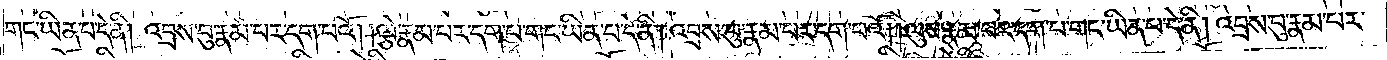གང་ཡིན་པ་དེ་ནི། འབྲས་བུ་རྣམ་པར་དག་པའོ། །ལྕེ་རྣམ་པར་དག་པ་གང་ཡིན་པ་དེ་ནི། འབྲས་བུ་རྣམ་པར་དག་པའོ། །ལུས་རྣམ་པར་དག་པ་གང་ཡིན་པ་དེ་ནི། འབྲས་བུ་རྣམ་པར་
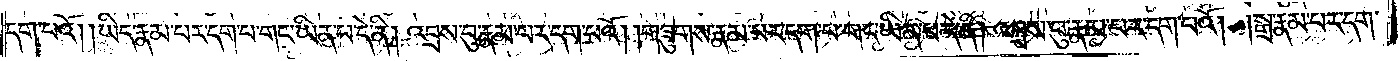དག་པའོ། །ཡིད་རྣམ་པར་དག་པ་གང་ཡིན་པ་དེ་ནི། འབྲས་བུ་རྣམ་པར་དག་པའོ། །གཟུགས་རྣམ་པར་དག་པ་གང་ཡིན་པ་དེ་ནི། འབྲས་བུ་རྣམ་པར་དག་པའོ། །སྒྲ་རྣམ་པར་དག་
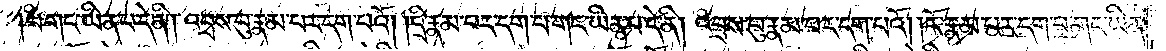པ་གང་ཡིན་པ་དེ་ནི། འབྲས་བུ་རྣམ་པར་དག་པའོ། །དྲི་རྣམ་པར་དག་པ་གང་ཡིན་པ་དེ་ནི། འབྲས་བུ་རྣམ་པར་དག་པའོ། །རོ་རྣམ་པར་དག་པ་གང་ཡིན་
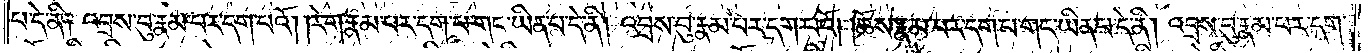པ་དེ་ནི༑ འབྲས་བུ་རྣམ་པར་དག་པའོ། །རེག་རྣམ་པར་དག་པ་གང་ཡིན་པ་དེ་ནི། འབྲས་བུ་རྣམ་པར་དག་པའོ། །ཆོས་རྣམ་པར་དག་པ་གང་ཡིན་པ་དེ་ནི། འབྲས་བུ་རྣམ་པར་དག་
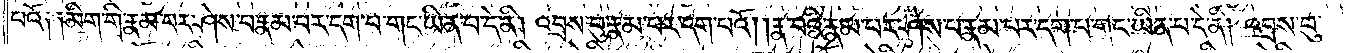པའོ༑ ༑མིག་གི་རྣམ་པར་ཤེས་པ་རྣམ་པར་དག་པ་གང་ཡིན་པ་དེ་ནི། འབྲས་བུ་རྣམ་པར་དག་པའོ། །རྣ་བའི་རྣམ་པར་ཤེས་པ་རྣམ་པར་དག་པ་གང་ཡིན་པ་དེ་ནི། འབྲས་བུ་
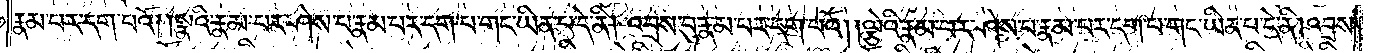རྣམ་པར་དག་པའོ། །སྣའི་རྣམ་པར་ཤེས་པ་རྣམ་པར་དག་པ་གང་ཡིན་པ་དེ་ནི། འབྲས་བུ་རྣམ་པར་དག་པའོ། །ལྕེའི་རྣམ་པར་ཤེས་པ་རྣམ་པར་དག་པ་གང་ཡིན་པ་དེ་ནི། འབྲས་
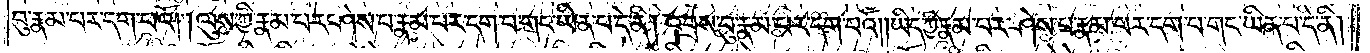བུ་རྣམ་པར་དག་པའོ། །ལུས་ཀྱི་རྣམ་པར་ཤེས་པ་རྣམ་པར་དག་པ་གང་ཡིན་པ་དེ་ནི། འབྲས་བུ་རྣམ་པར་དག་པའོ། །ཡིད་ཀྱི་རྣམ་པར་ཤེས་པ་རྣམ་པར་དག་པ་གང་ཡིན་པ་དེ་ནི།
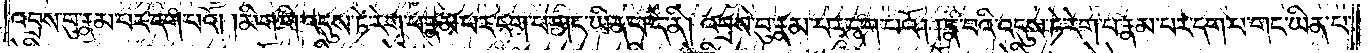འབྲས་བུ་རྣམ་པར་དག་པའོ། །མིག་གི་འདུས་ཏེ་རེག་པ་རྣམ་པར་དག་པ་གང་ཡིན་པ་དེ་ནི། འབྲས་བུ་རྣམ་པར་དག་པའོ། །རྣ་བའི་འདུས་ཏེ་རེག་པ་རྣམ་པར་དག་པ་གང་ཡིན་པ་
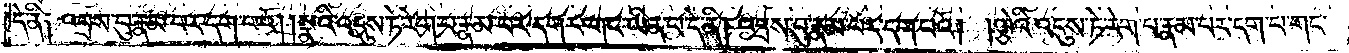དེ་ནི༑ འབྲས་བུ་རྣམ་པར་དག་པའོ། །སྣའི་འདུས་ཏེ་རེག་པ་རྣམ་པར་དག་པ་གང་ཡིན་པ་དེ་ནི། འབྲས་བུ་རྣམ་པར་དག་པའོ། །ལྕེའི་འདུས་ཏེ་རེག་པ་རྣམ་པར་དག་པ་གང་
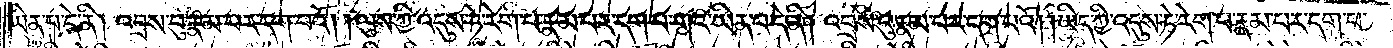ཡིན་པ་དེ་ནི། འབྲས་བུ་རྣམ་པར་དག་པའོ། །ལུས་ཀྱི་འདུས་ཏེ་རེག་པ་རྣམ་པར་དག་པ་གང་ཡིན་པ་དེ་ནི། འབྲས་བུ་རྣམ་པར་དག་པའོ། །ཡིད་ཀྱི་འདུས་ཏེ་རེག་པ་རྣམ་པར་དག་པ་
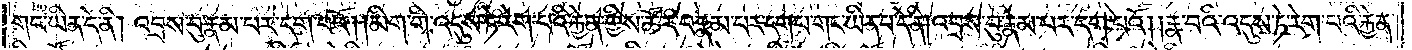གང་ཡིན་དེ་ནི། འབྲས་བུ་རྣམ་པར་དག་པའོ། །མིག་གི་འདུས་ཏེ་རེག་པའི་རྐྱེན་གྱིས་ཚོར་བ་རྣམ་པར་དག་པ་གང་ཡིན་པ་དེ་ནི། འབྲས་བུ་རྣམ་པར་དག་པའོ། །རྣ་བའི་འདུས་ཏེ་རེག་པའི་རྐྱེན་
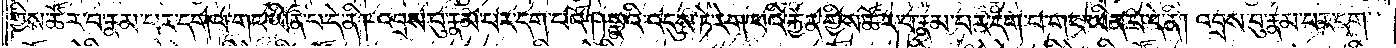གྱིས་ཚོར་བ་རྣམ་པར་དག་པ་གང་ཡིན་པ་དེ་ནི། འབྲས་བུ་རྣམ་པར་དག་པའོ། །སྣའི་འདུས་ཏེ་རེག་པའི་རྐྱེན་གྱིས་ཚོར་བ་རྣམ་པར་དག་པ་གང་ཡིན་པ་དེ་ནི། འབྲས་བུ་རྣམ་པར་དག་
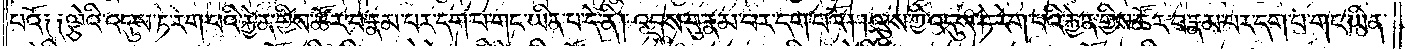པའོ༑ ༑ལྕེའི་འདུས་ཏེ་རེག་པའི་རྐྱེན་གྱིས་ཚོར་བ་རྣམ་པར་དག་པ་གང་ཡིན་པ་དེ་ནི། འབྲས་བུ་རྣམ་པར་དག་པའོ། །ལུས་ཀྱི་འདུས་ཏེ་རེག་པའི་རྐྱེན་གྱིས་ཚོར་བ་རྣམ་པར་དག་པ་གང་ཡིན་
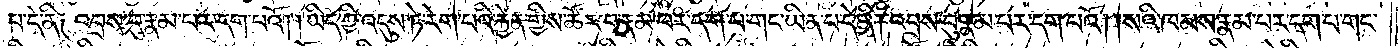པ་དེ་ནི༑ འབྲས་བུ་རྣམ་པར་དག་པའོ། །ཡིད་ཀྱི་འདུས་ཏེ་རེག་པའི་རྐྱེན་གྱིས་ཚོར་བ་རྣམ་པར་དག་པ་གང་ཡིན་པ་དེ་ནི། འབྲས་བུ་རྣམ་པར་དག་པའོ། །སའི་ཁམས་རྣམ་པར་དག་པ་གང་
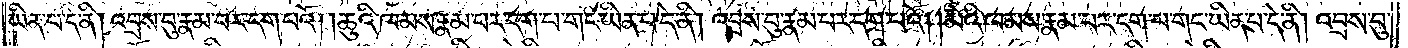ཡིན་པ་དེ་ནི། འབྲས་བུ་རྣམ་པར་དག་པའོ། །ཆུའི་ཁམས་རྣམ་པར་དག་པ་གང་ཡིན་པ་དེ་ནི། འབྲས་བུ་རྣམ་པར་དག་པའོ། །མེའི་ཁམས་རྣམ་པར་དག་པ་གང་ཡིན་པ་དེ་ནི། འབྲས་བུ་
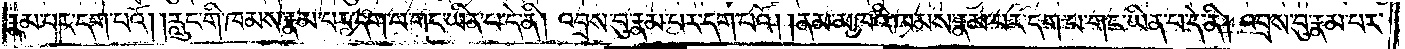རྣམ་པར་དག་པའོ། །རླུང་གི་ཁམས་རྣམ་པར་དག་པ་གང་ཡིན་པ་དེ་ནི། འབྲས་བུ་རྣམ་པར་དག་པའོ། །ནམ་མཁའི་ཁམས་རྣམ་པར་དག་པ་གང་ཡིན་པ་དེ་ནི། འབྲས་བུ་རྣམ་པར་
